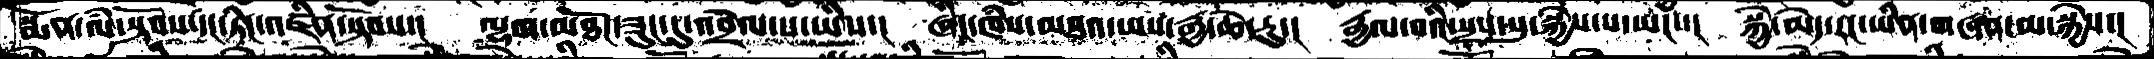སྨོན་ལཾ་སྟོབས་དང་ཏིང་འཛིན་སྟོབས་། ལྷག་མཐོང་ཟུང་དུ་འབྲེལ་པ་ཡིས་། ཞིང་ཁཾས་མཐའ་ཡས་རྒྱ་ཆེ་རུ་། རྒྱལ་བའི་སྲས་སུ་སྐྱེས་པ་ཡང་་། སྐྱེ་མེད་རང་ཡིན་གཞན་མ་སྐྱེས་།
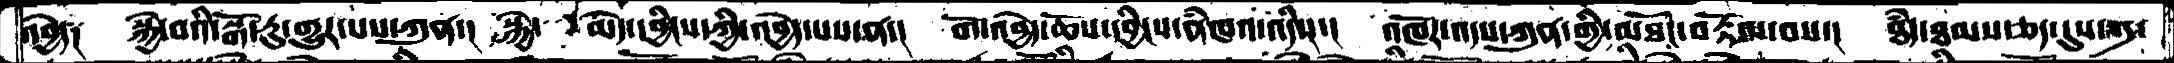འབྱེད༑  སྐྱེ་བའི་སྒོ་རུ་གྱུར་པས་ཀུན་། སྐྱེ་མེད་དབྱིངས་ཀྱི་འབྱེད་པས་ན་། གོ་འབྱེད་ཆོས་དབྱིངས་ནཾཁའ་འདིས་། འཁོར་འདས་ཀུན་གྱི་མཐོང་བརྟོལ་བས་། ཐཾད་ཐམས་ཅད་དུས་༡་
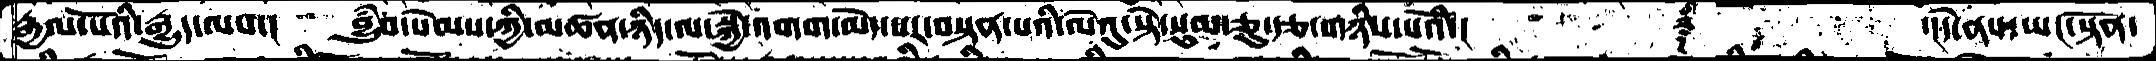རྒྱལ་པོའི་རྒྱུད་ལས་།  བྱུཾབ་སེམས་ཀྱི་མཚན་ཉིད་ལ་སྐྱེ་འགག་མེད་པར་བསྟན་པའི་ལེའུ་སྟེ་སུམ་ཅུ་རྩ་གཉིས་པའོ་།    ༈   ་།དེ་ནས་ཡང་སྟོན་
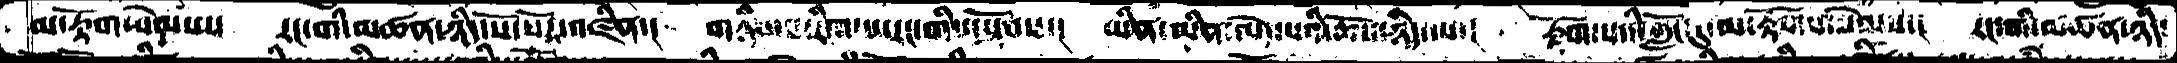མ་རྟོག་སེམས་། རང་གི་མཚན་ཉིད་སོ་སོར་འཛིན་། གཉིས་པ་རིག་པ་རང་གི་སྟོབས་། ཡིན་མིན་མེད་པའི་ཆོས་ཉིད་ལ་། རྟོག་པའི་ཀློང་དུ་མ་རྟོགས་སེམས་། རང་གི་མཚན་ཉིད་
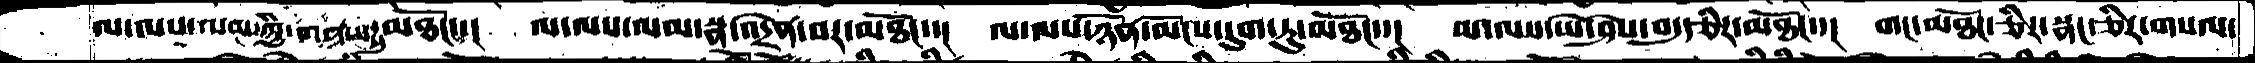ལ་ལས་ལམ་གྱི་གནས་སུ་མཐོང་། ལ་ལས་ལམ་སྣ་འདྲེན་བར་མཐོང་་། ལ་ལས་ཉོན་མོངས་དུག་ཏུ་མཐོང་་།  ལ་ལས་ཡེ་ཤེས་བདུད་རྩིར་མཐོང་་། གང་མཐོང་ཅིར་སྣང་ཅིར་གསལ་
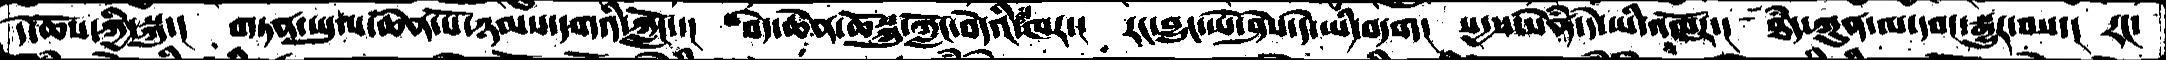དེ་ཆོས་ཀྱི་སྐུ་། གཏན་ཡུལ་ཆེན་པོ་ཉམས་དགའི་ཀློང་་། བདེ་ཆེན་ཆོསྐུ་ཀློང་བདེའི་མཁར་། རང་བྱུང་ཡེ་ཤེས་དེ་ཡི་བདག། སདྱས་སེཾན་དེ་ཡི་འཁོར་། ཐཾད་ཀུན་ལ་དབང་སྒྱུར་བས་། རང་
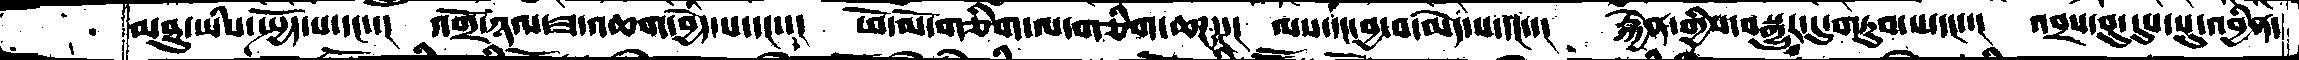མཐུ་ཡིས་སྤྱོད་པ་དང་་། འགྲོ་ཉལ་ཟ་འཆག་བྱེད་པ་དང་་། ཕོ་མོ་གཅིག་ལ་གཅིག་ཆཌ་དང་། ལས་དང་བྱ་བ་མེད་པ་དང་་། རྐྱེན་གྱིས་བསྒྱུར་དུ་གཏུབ་པ་དང་་། འབྲས་བུ་དུས་སུ་འབྱིན་
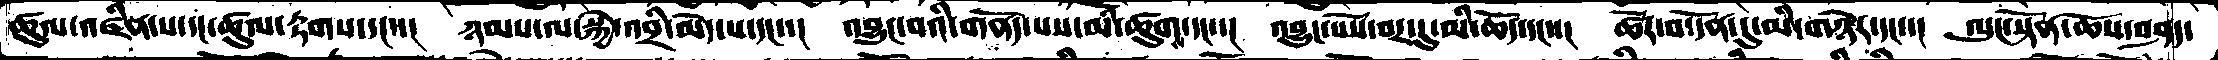ཚུལ་འཛིན་པ་དང་ཚུལ་རྟགས་དང་་། ཉམས་ལ་སྐྱེ་འབྲི་མེད་པ་དང་་། འབྱུང་བའི་གནོད་པས་མི་ཚུགས་དང་་། འབྱུང་པོས་བར་དུ་མི་ཆོད་དང་་། ཚོར་བ་དོན་དུ་མི་གཉེར་དང་་། ལུང་སྟོན་ཆོས་བཤད་
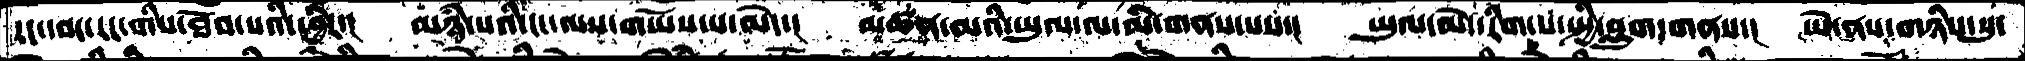རང་དབང་རང་གིས་ཐོབ་པའི་ཕྱིར་། མཉཾ་པའི་ངང་ལས་གཡོས་པ་མེད་། མཚན་མའི་ཡུལ་ལ་མི་གནས་པས་། ཡུལ་མེད་རིག་པ་སྤྱི་བླུག་གནས་། ཡེ་ནས་གཉིས་སུ་
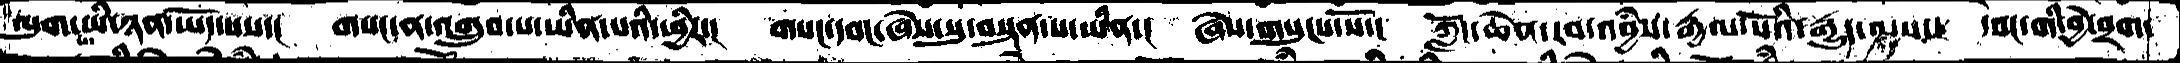ལུགས་ཡི་ཉན་ཡོད་པས་།  གསང་ན་འགྲུབ་པ་ཡིན་པའི་ཕྱིར་། གསང་དབང་ཞེས་སུ་བསྟན་པ་ཡིན་། ཞེས་གསུངས་སོ་། ཀློང་ཆེན་རབ་འབྱཾས་རྒྱལ་པོའི་རྒྱུད་ལས་།  དབང་གི་བྱེ་བྲག་
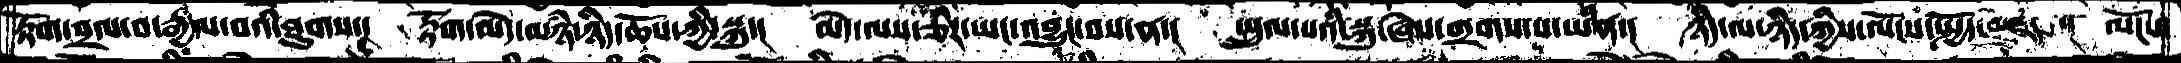རྟོག་བྲལ་བ་རྒྱལ་བའི་ཐུགས་།  རྟོག་མེད་མཉཾ་ཉིདཆོས་ཀྱི་སྐུ་། མེད་ལས་ཅིར་ཡང་འབྱུང་བས་ན་། སྤྲུལ་པའི་སྐུ་ཞེས་གྲགས་པ་ཡིན་། ཉིད་ལ་ཉིད་ཀྱིས་ལོངས་སྤྱོད་མཛད་།  ལོངས་
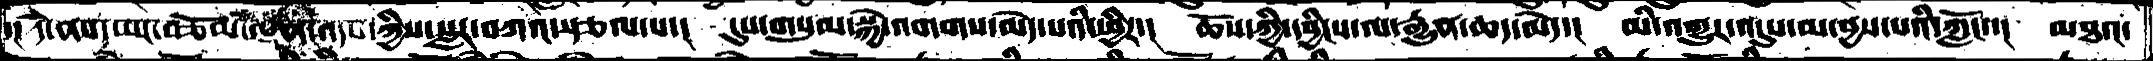་། དེ་ནས་ཡང་བཅོམ་ལྡན་འདས་ཀྱིས་སླར་བཀའ་སྩལ་པ་། དུས་གསུམ་སྐྱེ་འགགས་མེད་པའི་ཕྱིར་། ཆོས་ཀྱི་དབྱིངས་ལ་རྒྱུན་ཆད་མེད་། མི་འགྱུར་འདུས་མ་བྱས་པའི་ཀློང་་། མཐའ་
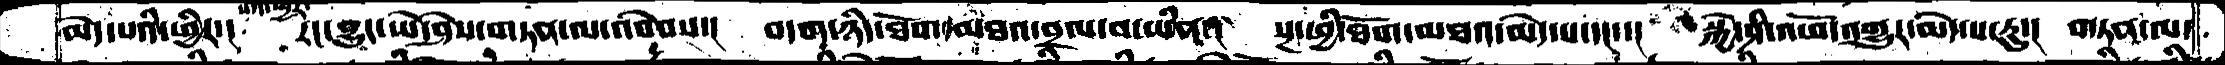མེད་པའི་ཕྱིར་།  རང་བྱུང་ཡེ་ཤེས་གཏན་ལ་འབེབས་། བདག་ཉིད་ཐོག་མཐའ་བྲལ་བ་ཡིན་། སྔ་ཕྱི་ཐོག་མཐའ་མེད་པ་དང་་། སྐྱེ་ཤི་འཕོ་འགྱུར་མེད་པ་རུ་།  གཏན་ལ་
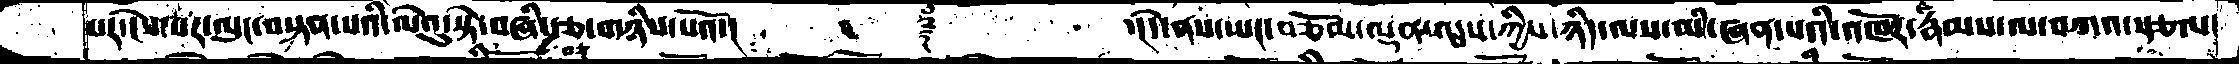པར་ངེས་པར་ལུང་བསྟན་པའི་ལེའུ་སྟེ་བཞི་བཅུ་རྩ་གཉིས་པའོ་།     ༈      ་།དེ་ནས་ཡང་བཅོམ་ལྡན་འདས་ཀྱིས་ཉིད་ལས་མི་ཞན་པའི་འཁོར་རྣམས་ལ་བཀའ་སྩལ་
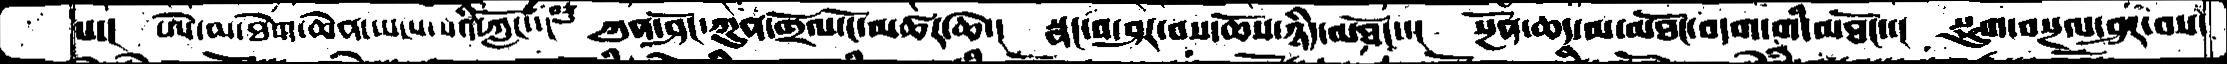པ་།  ཨེ་མ་ཐེག་ཆེན་ཡངས་པའི་ཀློང་་། ཀུན་ཤོང་ཀུན་གྲོལ་ངོ་མཚར་ཆེ་། སྣང་བ་ཤར་བས་ཆོས་ཉིད་མཐོང་་། སྔོན་ཆད་མ་མཐོང་བདག་གི་མཐོང་་། སྡུག་བསྔལ་ཤར་བས་
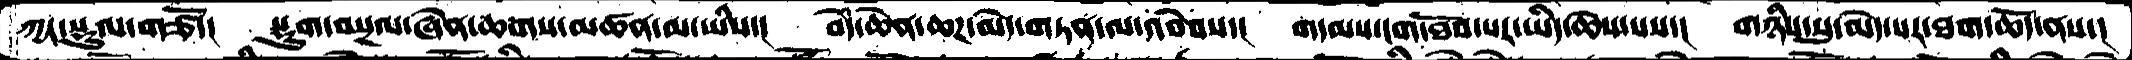ཀྱང་སྡུལ་གཙོ་། སྡུག་བསྔལ་ཞེན་ཆགས་མཚན་མ་ཡིས་། བདེ་ཆེན་ཆཌ་མེད་གཏན་ལ་འབེབས་།  གདམས་ངག་ཐོབ་པར་ཡིད་ཆེས་པས་། གཉིས་སུ་མེད་པར་ཐག་ཆོད་ནས་།
